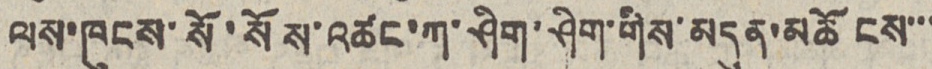ལས་ཁུངས་སོ་སོས་འཚང་ཀ་ཤིག་ཤིག་གིས་མདུན་མཆོངས་་་
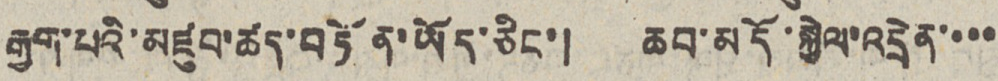རྒྱག་པའི་མཛུབ་ཚད་བཏོན་ཡོད་ཅིང་། ཆབ་མདོ་སྐྱེལ་འདྲེན་་་་
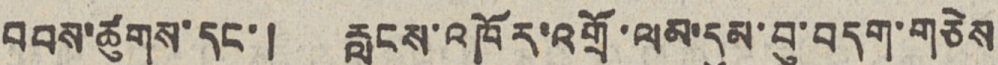བབས་ཚུགས་དང་། རླངས་འཁོར་འགྲོ་ལམ་དུམ་བུ་བདག་གཅེས
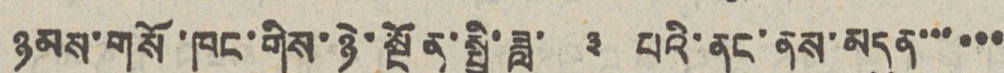ཉམས་གསོ་ཁང་གིས་ཉེ་སྔོན་སྤྱི་ཟླ་ ༣ པའི་ནང་ནས་མདུན་་་་་་
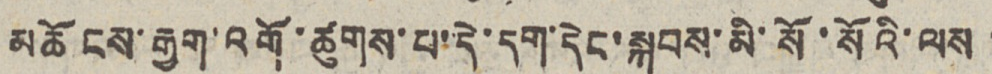མཆོངས་རྒྱག་འགོ་ཚུགས་པ་དེ་དག་དེང་སྐབས་མི་སོས་སོའི་ལས་
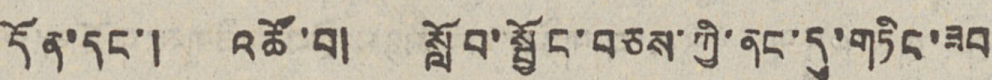དོན་དང་། འཚོ་བ་། སློབ་སྦྱོང་བཅས་ཀྱི་ནང་དུ་གཏིང་ཟབ
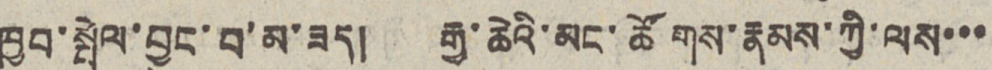ཁྱབ་སྤེལ་བྱུང་བ་མ་ཟད། རྒྱ་ཆེའི་མང་ཚོགས་རྣམས་ཀྱི་ལས་་་
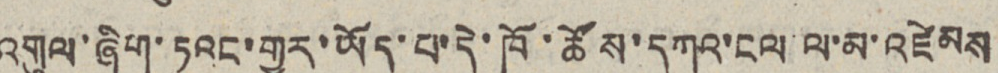འགུལ་ཞིག་ཏུའང་གྱུར་ཡོད་པ་དེ་ཁོ་ཚོས་དཀའ་ངལ་ལ་མ་འཛེམས
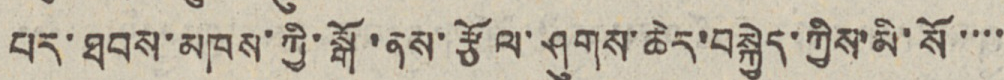པར་ཐབས་མཁས་ཀྱི་སྒོ་ནས་རྩོལ་ཤུགས་ཆེར་བསྐྱེད་ཀྱིས་མི་སོ་་་་
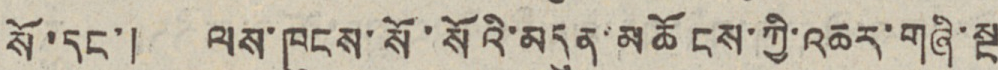སོ་དང་། ལས་ཁུངས་སོ་སོའི་མདུན་མཆོངས་ཀྱི་འཆར་གཞི་སྔ
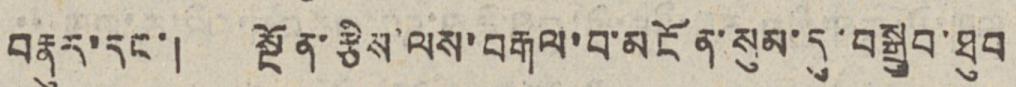བརྣུར་དང་། སྔོན་རྩིས་ལས་བརྒལ་བ་མངོན་སུམ་དུ་བསྒྲུབ་ཐུབ
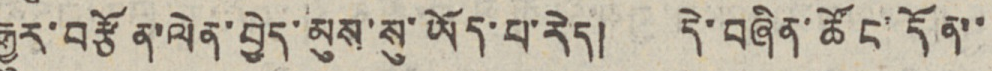རྒྱུར་བརྩོན་ལེན་བྱེད་མུས་སུ་ཡོད་པ་རེད། དེ་བཞིན་ཚོང་དོན་་
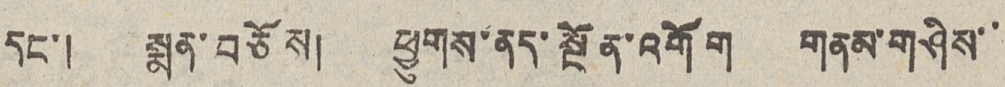དང་། སྨན་བཅོས། ཕྱུགས་ནད་སྔོན་འགོག གནས་གཤིས་་
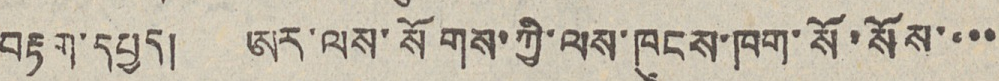བརྟག་དཔྱད། ཨར་ལས་སོགས་ཀྱི་ལས་ཁུངས་ཁག་སོ་སོས་་་་
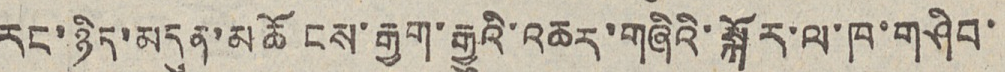རང་ཉིད་མདུན་མཆོངས་རྒྱག་རྒྱུའི་འཆར་གཞིའི་སྐོར་ལ་ཁ་གཤིབ་
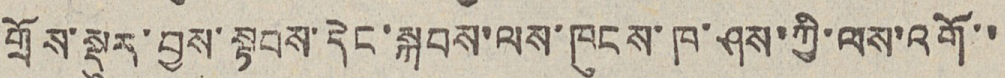གྲོས་སྡུར་བྱས་སྟབས་དེང་སྐབས་ལས་ཁུངས་ཁ་ཤས་ཀྱི་ལས་འགོ་་
